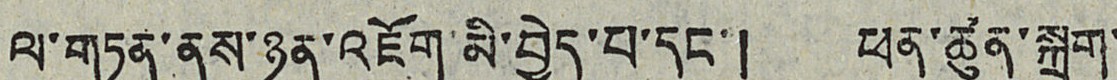ལ་གཏན་ནས་ཉན་འཇོག་མི་བྱེད་པ་དང་། ཕན་ཚུན་སྐྲག་
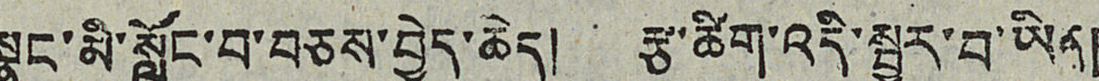སྣང་མི་སློང་བ་བཅས་བྱེད་ཆེད། རྩ་ཚིག་འདི་སྦྱར་བ་ཡིན།
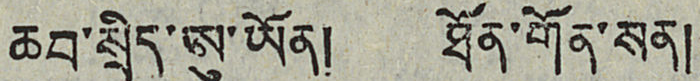ཆབ་སྲིད་ཨུ་ཡོན། ཐོན་གོན་སན།
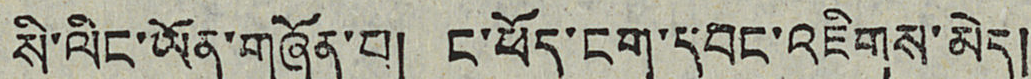སི་ལིང་ཡོན་གཞོན་པ། ང་ཕོད་ངག་དབང་འཇིགས་མེད།
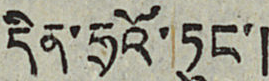དིན་ཧྲའོ་ཏུང་།
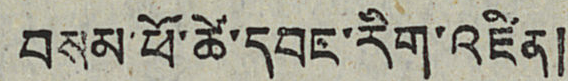བསམ་ཕོ་ཚེ་དབང་རིག་འཛིན།
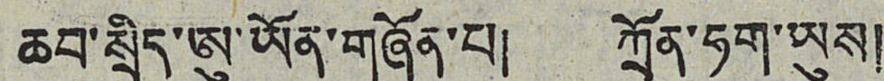ཆབ་སྲིད་ཨུ་ཡོན་གཞོན་པ། ཀྲོན་ཧག་ཡུས།
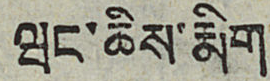ཝང་ཆིས་རྨིག
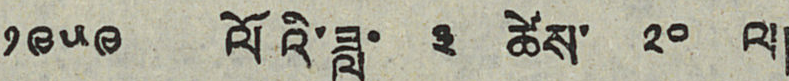༡༩༥༩ ལོའི་ཟླ་ ༣ ཚེས་ ༢༠ ལ།
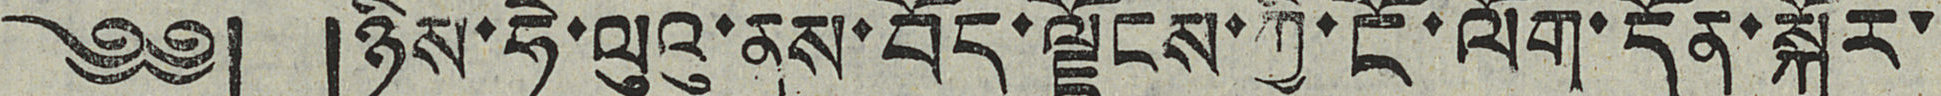༄༅། །ཉིས་ཧེ་ལུའུ་ནས་བོད་ལྗོངས་ཀྱི་ངོ་ལོག་དོན་སྐོར་
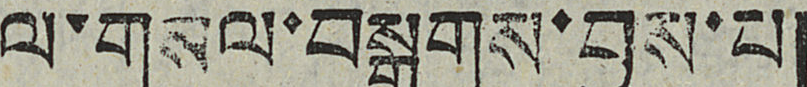ལ་གསལ་བསྒྲགས་བྱས་པ།
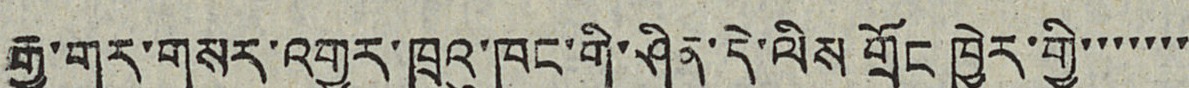རྒྱ་གར་གསར་འགྱུར་ཁྲུའུ་ཁང་གི་ཤིན་དེ་ལིས གྲོང ཁྱེར་གྱི་་་་་་་
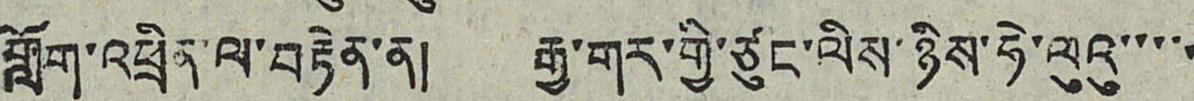གློག་འཕྲིན་ལ་བརྟེན་ན། རྒྱ་གར་གྱི་ཙུང་ལིས་ཉིས་ཧེ་ལུའུ་་་་་
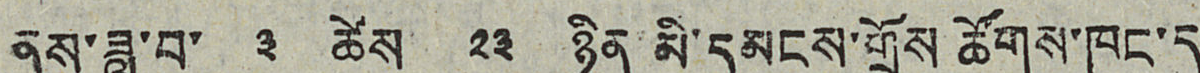ནས་ཟླ་བ་ ༣ ཚེས ༢༣ ཉིན མི་དམངས་གྲོས ཚོགས་ཁང་དུ
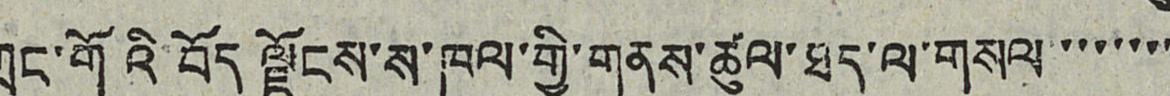ཀྲུང་གོའི་བོད ལྗོངས་ས་ཁུལ་གྱི་གནས་ཚུལ་ཐད་ལ་གསལ་་་་་་་
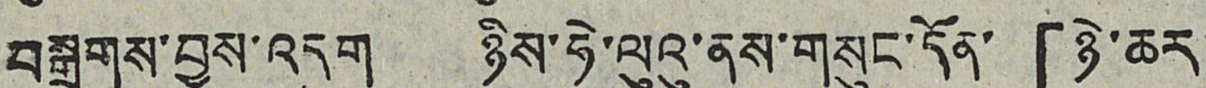བསྒྲགས་བྱས་འདུག ཉིས་ཧེ་ལུའུ་ནས་གསུང་དོན་ 「ཉེ་ཆར
